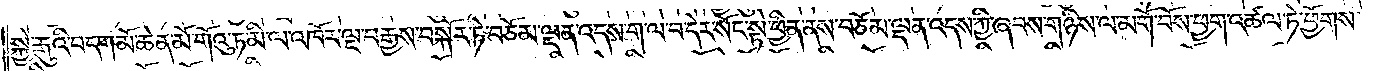སྐྱེ་རྒུའི་བདག་མོ་ཆེན་མོ་གོའུ་ཏ་མི་ལ་འཁོར་ལྔ་བརྒྱས་བསྐོར་ཏེ་བཅོམ་ལྡན་འདས་ག་ལ་བ་དེར་སོང་སྟེ་ཕྱིན་ནས་བཅོམ་ལྡན་འདས་ཀྱི་ཞབས་གཉིས་ལ་མགོ་བོས་ཕྱག་འཚལ་ཏེ་ཕྱོགས་
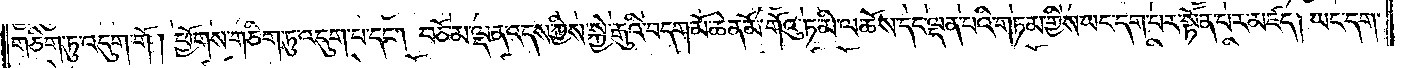གཅིག་ཏུ་འདུག་གོ །ཕྱོགས་གཅིག་ཏུ་འདུག་པ་དང༌། བཅོམ་ལྡན་འདས་ཀྱིས་སྐྱེ་རྒུའི་བདག་མོ་ཆེན་མོ་གོའུ་ཏ་མི་ལ་ཆོས་དང་ལྡན་པའི་གཏམ་གྱིས་ཡང་དག་པར་སྟོན་པར་མཛད། ཡང་དག་
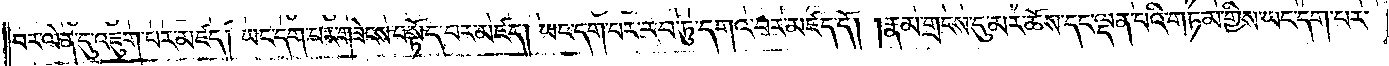བར་ལེན་དུ་འཇུག་པར་མཛད། ཡང་དག་པར་གཟེངས་བསྟོད་པར་མཛད། ཡང་དག་པར་རབ་ཏུ་དགའ་བར་མཛད་དོ། །རྣམ་གྲངས་དུ་མར་ཆོས་དང་ལྡན་པའི་གཏམ་གྱིས་ཡང་དག་པར་
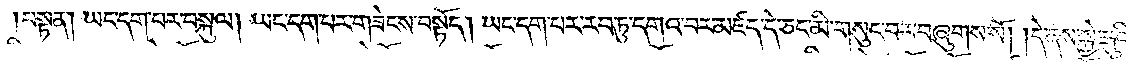བསྟན། ཡང་དག་པར་བསྐུལ། ཡང་དག་པར་གཟེངས་བསྟོད། ཡང་དག་པར་རབ་ཏུ་དགའ་བར་མཛད་དེ་ཅང་མི་གསུང་བར་བཞུགས་སོ། །དེ་ནས་སྐྱེ་རྒུའི་
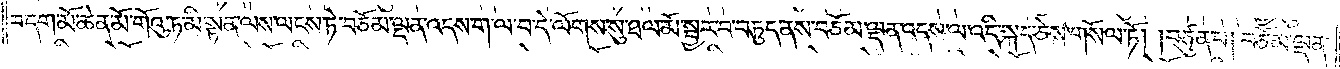བདག་མོ་ཆེན་མོ་གོའུ་ཏ་མི་སྟན་ལས་ལངས་ཏེ་བཅོམ་ལྡན་འདས་ག་ལ་བ་དེ་ལོགས་སུ་ཐལ་མོ་སྦྱར་བ་བཏུད་ནས་བཅོམ་ལྡན་འདས་ལ་འདི་སྐད་ཅེས་གསོལ་ཏོ། །བཙུན་པ། བཅོམ་ལྡན་
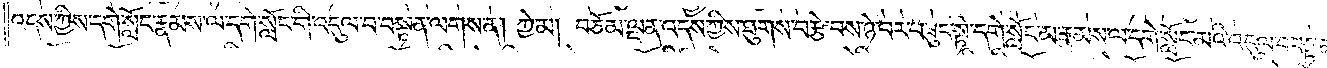འདས་ཀྱིས་དགེ་སློང་རྣམས་ལ་དགེ་སློང་གི་འདུལ་བ་བསྟན་ལགས་ན། ཀྱེ་མ། བཅོམ་ལྡན་འདས་ཀྱིས་ཐུགས་བརྩེ་བས་ཉེ་བར་བཟུང་སྟེ་དགེ་སློང་མ་རྣམས་ལ་དགེ་སློང་མའི་འདུལ་བ་བསྟན་
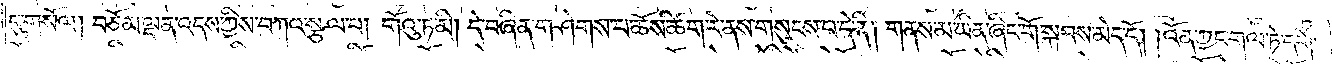དུ་གསོལ། བཅོམ་ལྡན་འདས་ཀྱིས་བཀའ་སྩལ་པ། གོའུ་ཏ་མི། དེ་བཞིན་གཤེགས་པ་ཆོས་ཚིག་རེ་ནས་གསུངས་པ་དེ་ནི། གནས་མ་ཡིན་ཞིང་གོ་སྐབས་མེད་དོ། །འོན་ཀྱང་གལ་ཏེ་དགེ་
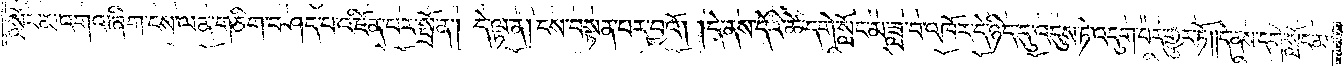སློང་མ་འགའ་ཞིག་ངས་ལན་གཅིག་བཤད་པ་འཛིན་པར་སྤྲོ་ན། དེ་ལྟ་ན། ངས་བསྟན་པར་བྱའོ། །དེ་ནས་དེའི་ཚེ་དགེ་སློང་མ་ཟླ་བ་འཁོར་དེ་ཉིད་དུ་འདུས་ཏེ་འདུག་པར་གྱུར་ཏོ། །དེ་ནས་དགེ་སློང་མ་
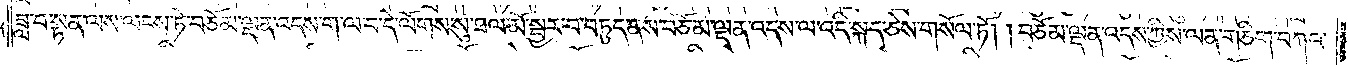ཟླ་བ་སྟན་ལས་ལངས་ཏེ་བཅོམ་ལྡན་འདས་ག་ལ་བ་དེ་ལོགས་སུ་ཐལ་མོ་སྦྱར་བ་བཏུད་ནས་བཅོམ་ལྡན་འདས་ལ་འདི་སྐད་ཅེས་གསོལ་ཏོ། །བཅོམ་ལྡན་འདས་ཀྱིས་ལན་གཅིག་བཀའ་
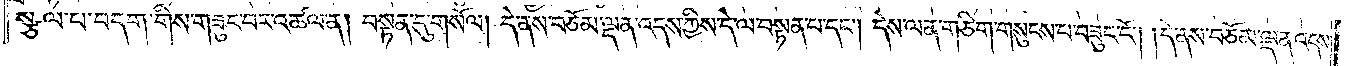སྩལ་པ་བདག་གིས་གཟུང་བར་འཚལ་ན། བསྟན་དུ་གསོལ། དེ་ནས་བཅོམ་ལྡན་འདས་ཀྱིས་དེ་ལ་བསྟན་པ་དང༌། དེས་ལན་གཅིག་གསུངས་པ་བཟུང་ངོ༌། །དེ་ནས་བཅོམ་ལྡན་འདས་
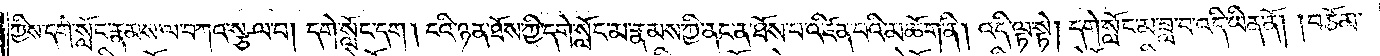ཀྱིས་དགེ་སློང་རྣམས་ལ་བཀའ་སྩལ་པ། དགེ་སློང་དག། ངའི་ཉན་ཐོས་ཀྱི་དགེ་སློང་མ་རྣམས་ཀྱི་ནང་ན་ཐོས་པ་འཛིན་པའི་མཆོག་ནི། འདི་ལྟ་སྟེ། དགེ་སློང་མ་ཟླ་བ་འདི་ཡིན་ནོ། །བཅོམ་
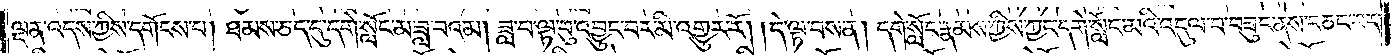ལྡན་འདས་ཀྱིས་དགོངས་པ། ཐམས་ཅད་དུ་དགེ་སློང་མ་ཟླ་བའམ། ཟླ་བ་ལྟ་བུ་འབྱུང་བར་མི་འགྱུར་རོ། །དེ་ལྟ་བས་ན། དགེ་སློང་རྣམས་ཀྱིས་ཀྱང་དགེ་སློང་མའི་འདུལ་བ་བཟུང་ནས་བཅང་བར་
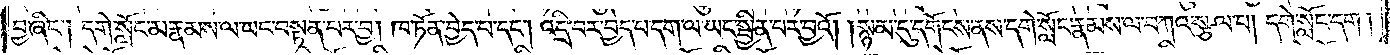བྱ་ཞིང༌། དགེ་སློང་མ་རྣམས་ལ་ཡང་བསྟན་པར་བྱ། ཁ་ཏོན་བྱེད་པ་དང༌། འདྲི་བར་བྱེད་པ་དག་ལ་ཡང་སྦྱིན་པར་བྱའོ། །སྙམ་དུ་དགོངས་ནས་དགེ་སློང་རྣམས་ལ་བཀའ་སྩལ་པ། དགེ་སློང་དག།
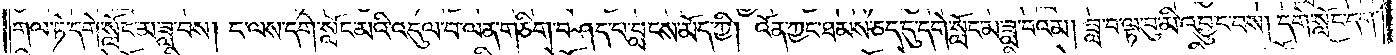གལ་ཏེ་དགེ་སློང་མ་ཟླ་བས། ང་ལས་དགེ་སློང་མའི་འདུལ་བ་ལན་གཅིག་བཤད་པ་བླངས་མོད་ཀྱི། འོན་ཀྱང་ཐམས་ཅད་དུ་དགེ་སློང་མ་ཟླ་བའམ། ཟླ་བ་ལྟ་བུ་མི་འབྱུང་བས། དགེ་སློང་དག།
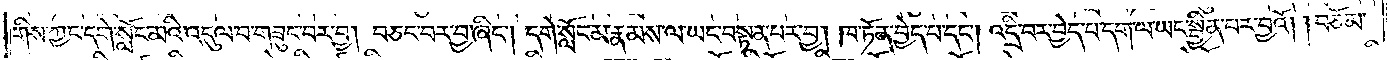གིས་ཀྱང་དགེ་སློང་མའི་འདུལ་བ་གཟུང་བར་བྱ། བཅང་བར་བྱ་ཞིང༌། དགེ་སློང་མ་རྣམས་ལ་ཡང་བསྟན་པར་བྱ། ཁ་ཏོན་བྱེད་པ་དང༌། འདྲི་བར་བྱེད་པ་དག་ལ་ཡང་སྦྱིན་པར་བྱའོ། །བཅོམ་
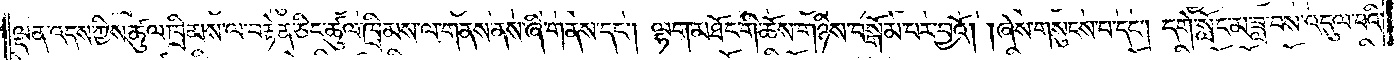ལྡན་འདས་ཀྱིས་ཚུལ་ཁྲིམས་ལ་བརྟེན་ཅིང་ཚུལ་ཁྲིམས་ལ་གནས་ནས་ཞི་གནས་དང༌། ལྷག་མཐོང་གི་ཆོས་གཉིས་བསྒོམ་པར་བྱའོ། །ཞེས་གསུངས་པ་དང༌། དགེ་སློང་མ་ཟླ་བས་འདུལ་བའི་
